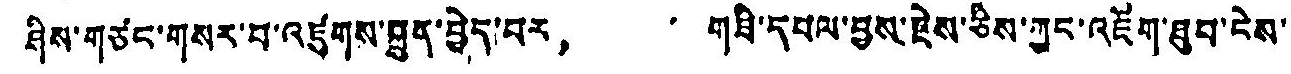ཤིས་གཙང་གསར་བ་འཛུགས་སྐྲུན་བྱེད་པར， གཟི་དཔལ་བྱས་རྗེས་ཅིས་ཀྱང་འཇོག་ཐུབ་ངེས་
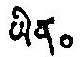ཡིན。
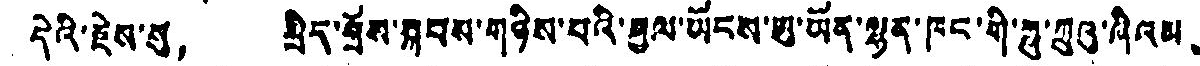དེའི་རྗེས་སུ， སྲིད་གྲོས་སྐབས་གཉིས་པའི་རྒྱལ་ཡོངས་ཨུ་ཡོན་ལྷན་ཁང་གི་ཧྥུ་ཀྲུའུ་ཞིའམ、
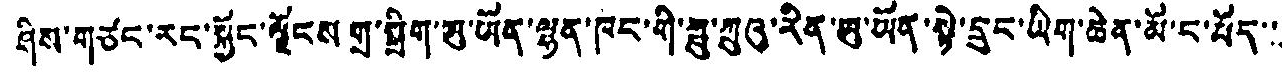ཤིས་གཙང་རང་སྐྱོང་ལྗོངས གྲ་སྒྲིག་ཨུ་ཡོན་ལྷན་ཁང་གི་ཧྥུ་ཀྲུའུ་རིན་ཨུ་ཡོན་སྟེ་དྲུང་ཡིག་ཆེན་མོ་ང་བོད་་་
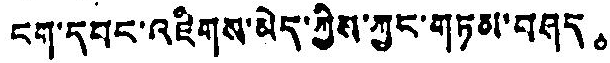ངག་དབང་འཇིགས་མེད་ཀྱིས་ཀྱང་གཏམ་བཤད。
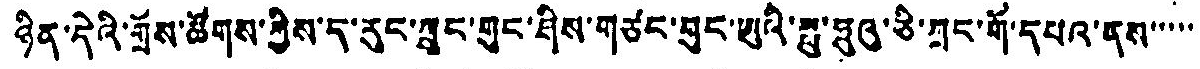ཉིན་དེའི་གྲོས་ཚོགས་ཀྱིས་ད་རུང་ཀྲུང་གུང་ཤིས་གཙང་བུང་ཨུའི་སྥུ་ཧུའུ་ཅི་ཀྲུང་གོ་དཔའ་ནས་་་་་་
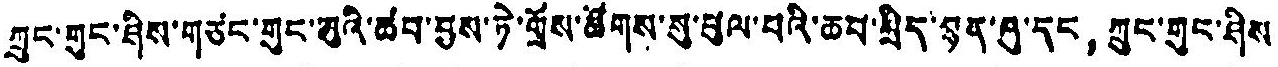ཀྲུང་གུང་ཤིས་གཙང་གུང་མུའི་ཚབ་བྱས་ཏེ་གྲོས་ཚོགས་སུ་ཕུལ་བའི་ཆབ་སྲིད་སྙན་ཤུ་དང， ཀྲུང་གུང་ཤིས
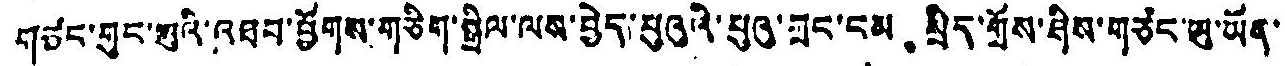གཙང་གུང་མུའི་འཐབ་ཕྱོགས་གཅིག་སྒྲིལ་ལས་བྱེད་པུའུའི་པུའུ་གྲང་ངམ。 སྲིད་གྲོས་ཤིས་གཙང་ཨུ་ཡོན་
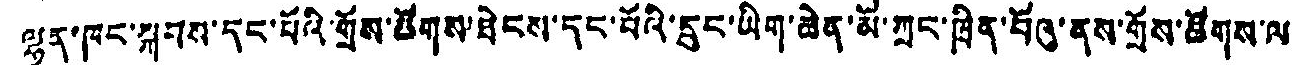ལྷན་ཁང་སྐབས་དང་པོའི་གྲོས་ཚོགས་ཐེངས་དང་པོའི་དྲུང་ཡིག་ཆེན་མོ་ཀྲང་ཁྲིན་པོའུ་ནས་གྲོས་ཚོགས་ལ་
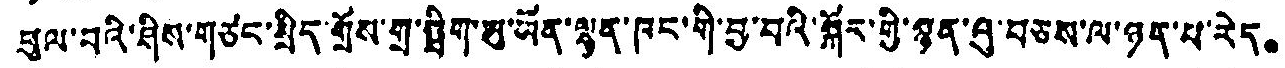ཕུལ་བའི་ཤིས་གཙང་སྲིད་གྲོས་གྲ་སྒྲིག་ཨུ་ཡོན་ལྷན་ཁང་གི་བྱ་བའི་སྐོར་གྱི་སྙན་འུ་བཅས་ལ་ཉད་པ་རེད。
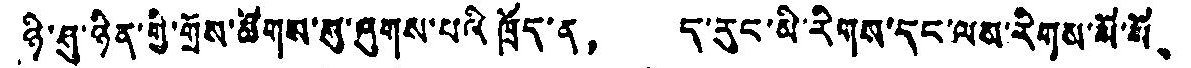ཉི་ཤུ་ཉིན་གྱི་གྲོས་ཚོགས་སུ་ཞུགས་པའི ཁྲོད་ན， ད་རུང་མི་རིགས་དང་ལམ་རིགས་སོ་སོ、
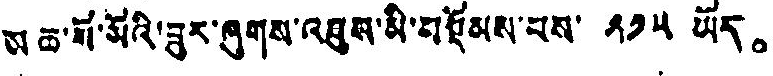ས ཆ་སོ་སོའི་ཟུར་ཞུགས་འཐུས་མི་བསྡོམས་པས་ ༢༡༥ ཡོད。
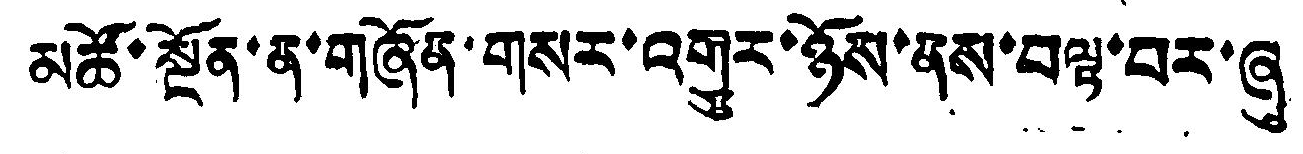མཚོ་སྔོན་ན་གཞོན་གསར་འགྱུར་ཉོས་ནས་བལྟ་བར་ཞུ
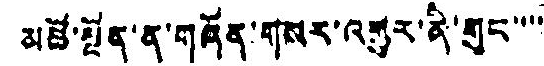མཚོ་སྔོན་ན་གཞོན་གསར་འགྱུར་ནི་གུང་་་་
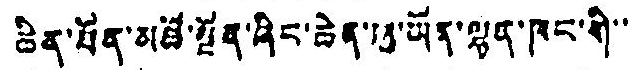ཆེན་པོན་མཚི་སྔོན་ཞིང་ཆེན་ཨུ་ཡོན་ལྷན་ཁང་གི་་
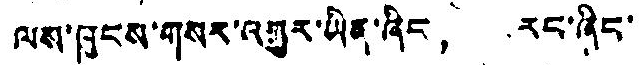ལས་ཁུངས་གསར་འགྱུར་ཡིན་ཞིང， རང་ཞིང་
